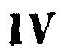IV
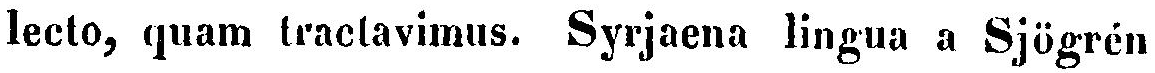lecto, quam tractavimus Syrjaena lingua a Sjögrén
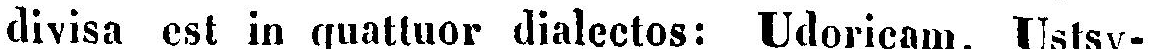divisa est in quattuor dialectos: Udoricam, Ustsy-
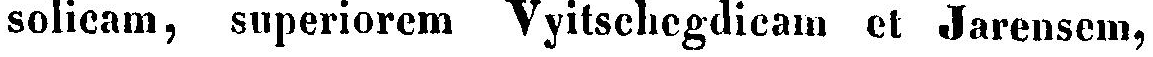solicam, superiorem Vyitschegdicam et Jarensem,
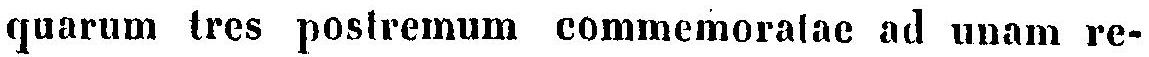quarum tres postremum commemoratae ad unam re-
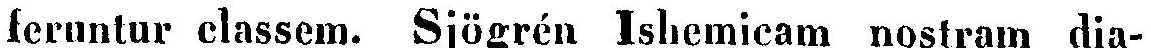feruntur classem. Sjögrén Ishemicam nostram dia-
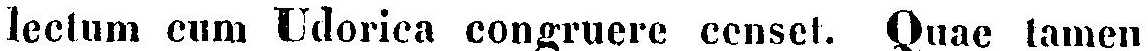lectum cum Udorica congruere censet. Quae tamen
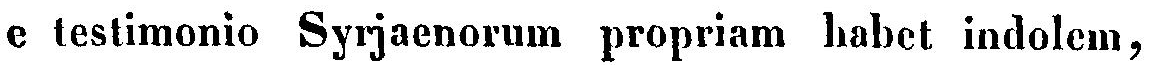e testimonio Syrjaenorum propriam habet indolem,
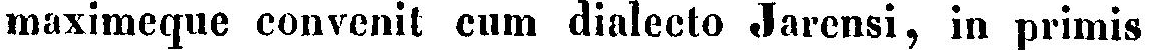maximeque convenit cum dialecto Jarensi, in primis
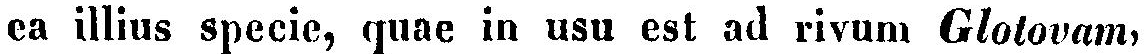ea illius specie, quae in usu est ad rivum Glotovam,
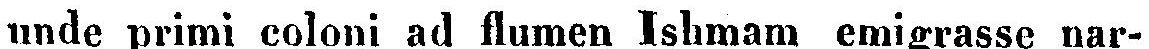unde primi coloni ad flumen Ishmam emigrasse nar-
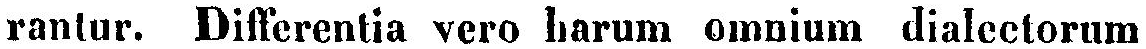rantur. Differentia vero harum omnium dialectorum
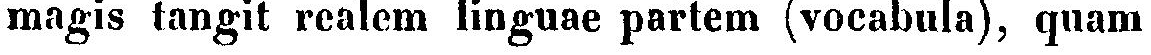magis tangit realem linguae partem (vocabula), quam
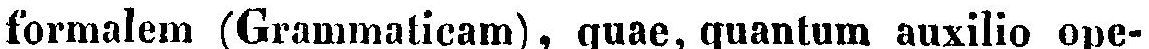formalem (Grammaticam), quae, quantum auxilio ope-
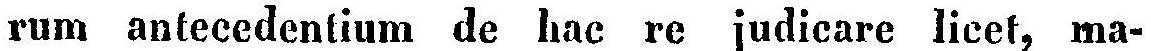rum antecedentium de hac re judicare licet, ma-
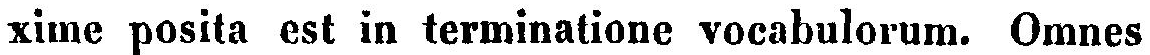xime posita est in terminatione vocabulorum. Omnes
